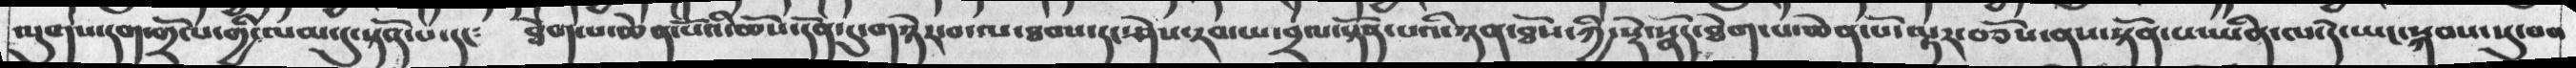ལུགས་དག་གྲོལ་གྱི་ལམ་དུ་སྟོན་པ་དང༴  ཐེག་པ་ཆེན་པོའི་ཆོས་དོན་དུ་གཉེར་བ་ལ་ཐབས་དང་ཤེས་རབ་ཡ་བྲལ་སྟོན་པའི་ཉན་ཐོས་ཀྱི་སྡེ་སྣོད་ཐེག་པ་ཆེན་པོ་ལྟར་བཅོས་ནས་སྟོན་པ་ཡིན་ལ་དེ་ཡང་སྐབས་སུ་བབ
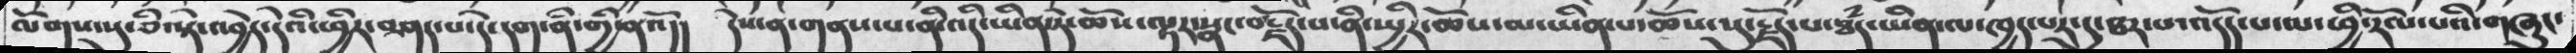ལོགས་སུ་ཅི་སྟེ་འབྱེད་དེའི་ཕྱིར་བཤད་པ་དེ་དག་ནི་གྱི་ནའོ།། དེས་ན་གནས་པ་ནི་འདི་ཡིན་ཏེ་ཆོས་ལྟར་སྣང་བརྗོད་པ་ནི་སྤྱིར་ཆོས་མ་ཡིན་པ་ཆོས་སུ་རྗོད་པ་ཐཾད་ཡིན་ལ་ཁྱད་པར་དུ་ཐར་པ་འདོད་པ་མ་ཕྱི་རོལ་པའི་གཞུང་
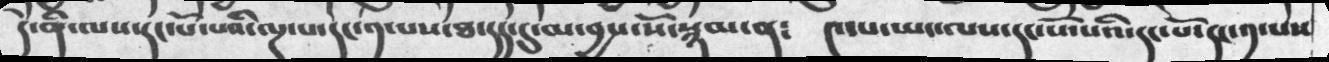དེ་ནི་ལས་དང་པོ་པའི་ལྔ་པ་དང་༡་པས་ཐ་དད་དུ་མ་བྱས་སོ་སྙམ་ན༴  ༤་པ་ཡང་ལས་དང་པོ་པའི་དང་པོ་དང་༡་པས་
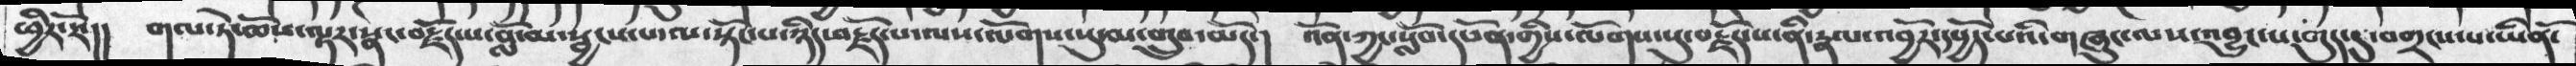ཕྱིར་རོ་།།  གལ་ཏེ་ཆོས་ལྟར་སྣང་བརྗོད་པ་བློ་མ་སྦྱངས་པ་ལ་སྟོང་ཉིད་བརྗོད་པ་ལས་ལོགས་སུ་མ་གྲུབ་མོད་།  འོན་ཀྱང་སློབ་དཔོན་གྱིས་ལོགས་སུ་བརྗོད་པ་ནི་རྣལ་འབྱོར་དཔྱོད་པའི་གཞུང་ལས་འབྱུང་པ་གུད་དུ་བགྲངས་པ་ཡིནོ་
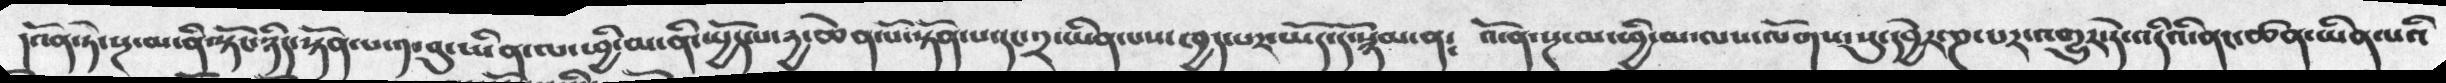།འོན་ཏེ་སྔ་མ་ནི་སྟོང་ཉིད་སྟོན་པ་༡་བུ་ཡིན་ལ་ཕྱི་མ་ནི་སྤྱོད་པ་རྱ་ཆེན་པོ་སྟོན་པ་དང་༢་ཡིན་པས་ཁྱད་པར་ཡོད་དོ་སྙམ་ན༴ འོ་ན་སྔ་མ་ཕྱི་མ་ལས་ལོགས་སུ་དབྱེར་ཎ་པར་འགྱུར་དེ་འདིའི་ནང་ཚན་ཡིན་པའི
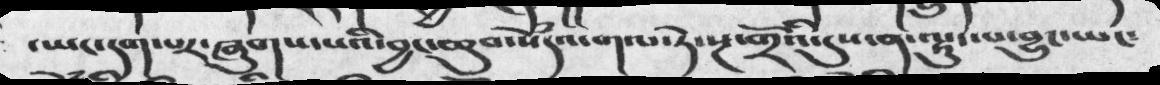་ཡང་དག་པར་ཞུགས་པའི་བྱང་ཆུབ་སེཾདའ་གལ་ཏེ་སྔ་གྲོའི་དུས་ན་ལྟུང་པ་བྱུང་ཡང་
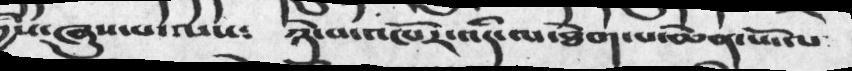ས་ཞུས་པ་ལས༴  ཉེ་བ་འཁོར་འདི་ལ་ཐེག་པ་ཆེན་པོ་ལ
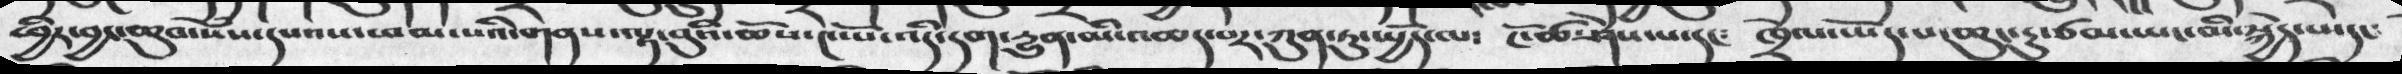ཕྱིར་བྱང་ཆུབ་སེཾས་དཔའས་ཕམ་པའི་གནས་ལྟ་བུའི་ཆོས་༤་པོ་འདི་དག་དྱུན་མི་འཆད་པར་ཀུན་ཏུ་སྤྱོད་ལ༴  ངོ་ཚ་ཤེས་པ་དང༴  ཁྲེལ་ཡོད་པ་ཆུང་ངུ་ཙམ་ཡང་མི་སྐྱེད་པ་དང༴
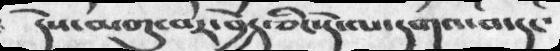དེས་མགུ་བར་བྱེད་ཅིང་དེ་ལ་དགའ་བ་དང་
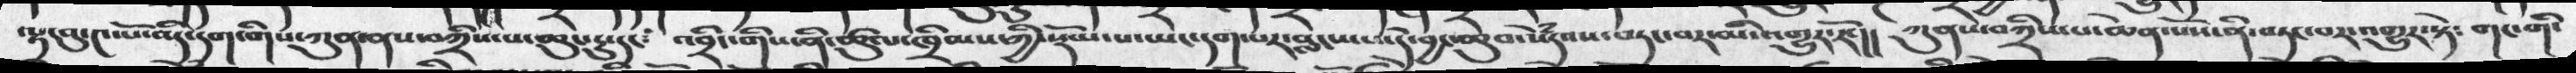ལྟ་བུ་༤་པོ་འདི་དག་གིས་ཀུན་ནས་བཀྲིས་པ་ཆུང་ངུ་དང༴ འབྲིང་གིས་ཚུལ་ཁྲིམས་ཀྱི་སྡོམ་པ་ཡང་དག་པར་བླངས་པ་དེ་བྱང་ཆུབ་སེཾདའས་བཏང་བར་མི་འགྱུར་རོ་།། ཀུནས་བཀྲིས་པ་ཆེན་པོས་ནི་བཏང་བར་འགྱུར་སྟེ༴ གང་གི་
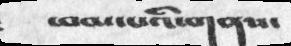ཕམ་པའི་གནས་
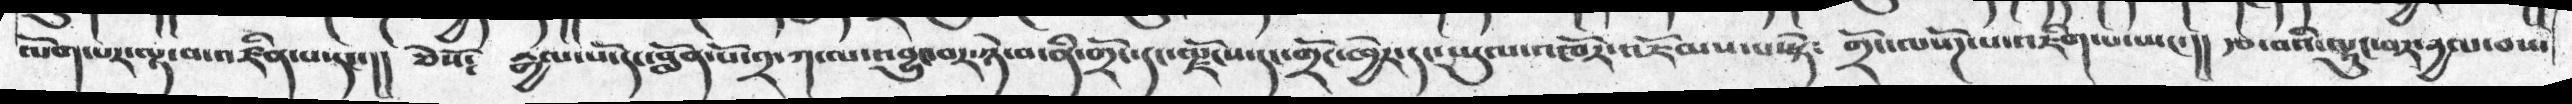ལོག་པར་ལྟ་བ་འཛིན་པ་དང་།། ཅེསོ༴ རྒྱལ་པོ་དང་བློན་པོ་༢་ཀ་ལ་འབྱུང་བར་ཉེ་བ་ནི་གྲོང་དང་ལྗོངས་དང་གྲོང་ཁྱེར་དང་ཡུལ་འཁོར་འཇོམས་པ་སྟེ༴ གྲོང་ལསོཌ་པ་འཇིག་པ་ཡང་།། རྩ་བའི་ལྟུང་བར་དྱལ་བས་
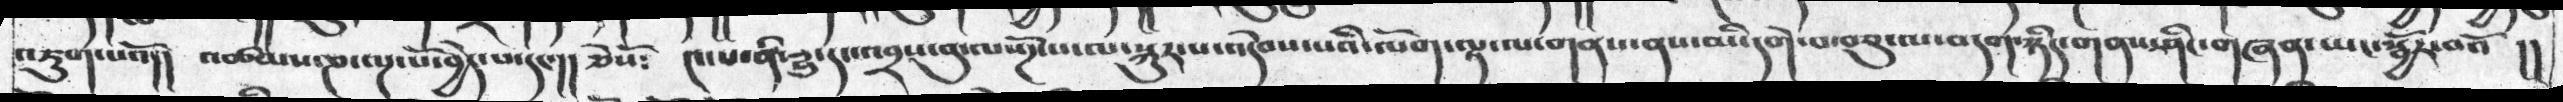འཇུག་པའོ།། འཚམས་ཎ་ལྔ་པོ་བྱེད་པ་དང་།། ཅེསོ༴ ༤་པ་ནི་རྱུ་དང་འབྲས་བུ་ལསོཌ་པ་ལ་སྐུར་པ་འདེབས་པའི་ལོག་ལྟ་ལ་གནས་ནས་མི་དགེ་བ་བཅུ་ལ་བདག་ཉིད་གནས་ཤིང་གཞན་ཡང་སྦྱོར་བའོ །།
